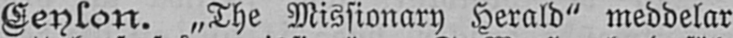Ceylon. „The Missionary Herald" meddelar
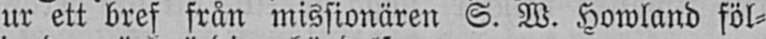ur ett bref från missionären S. W. Howland föl-
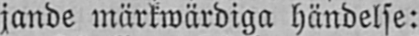jande märkwärdiga händelse:
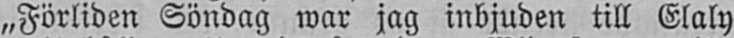„Förliden Söndag war jag inbjuden till Elaly
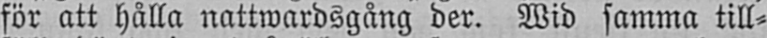för att hålla nattwardsgång der. Wid samma till-
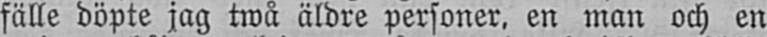fälle döpte jag twå äldre personer, en man och en
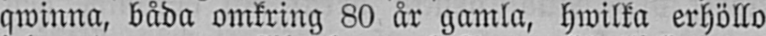qwinna, båda omkring 80 år gamla, hwilka erhöllo
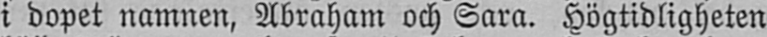i dopet namnen, Abraham och Sara. Högtidligheten
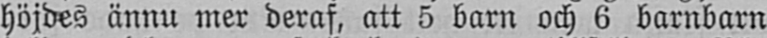höjdes ännu mer deraf, att 5 barn och 6 barnbarn
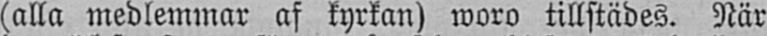(alla medlemmar af kyrkan) woro tillstädes. När
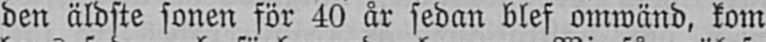den äldste sonen för 40 år sedan blef omwänd, kom
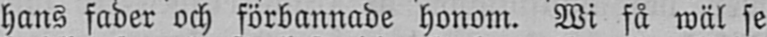hans fader och förbannade honom. Wi få wäl se
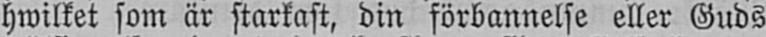hwilket som är starkast, din förbannelse eller Guds
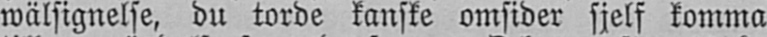wälsignelse, du torde kanske omsider sjelf komma
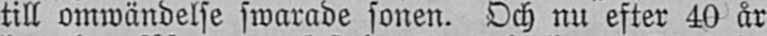till omwändelse swarade sonen. Och nu efter 40 år
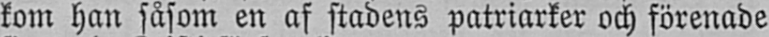kom han såsom en af stadens patriarker och förenade
